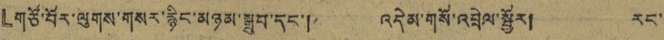「གཙོ་བོར་ལུགས་གསར་རྙིང་མཉམ་སྒྲུབ་དང་། འདེམ་གསོ་འབྲེལ་སྦྱོར། རང་
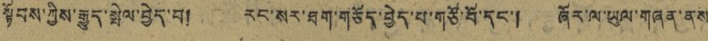སྟོབས་ཀྱིས་རྒྱུད་སྤེལ་བྱེད་བ། རང་སར་ཐག་གཅོད་བྱེད་པ་གཙོ་བོ་དང་། ཞོར་ལ་ཡུལ་གཞན་ནས
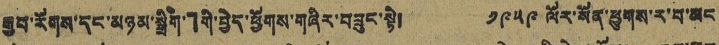རྒྱབ་རོགས་དང་མཉམ་སྒྲིག་」གི་བྱེད་ཕྱོགས་གཞིར་བཟུང་སྟེ། ༡༩༥༩ ལོར་སོན་ཕྱུགས་ར་བ་མང
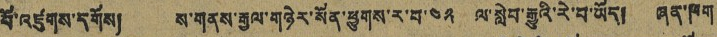པོ་འཛུགས་དགོས། ས་གནས་རྒྱལ་གཉེར་སོན་ཕྱུགས་ར་བ་༤༢ ལ་སླེབ་རྒྱུའི་རེ་བ་ཡོད། ཞན་ཁག
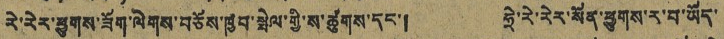རེ་རེར་ཕྱུགས་ཟོག་ལེགས་བཅོས་ཁྱབ་སྤེལ་གྱི་ས་ཚུགས་དང་། ཧྲེ་རེ་རེར་སོན་ཕྱུགས་ར་བ་ཡོད་
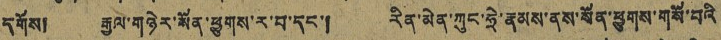དགོས། རྒྱལ་གཉེར་སོན་ཕྱུགས་ར་བ་དང་། རིན་མེན་ཀུང་ཧྲེ་རྣམས་ནས་སོན་ཕྱུགས་གསོ་བའི
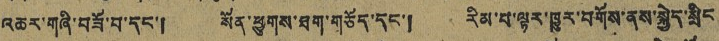འཆར་གཞི་བཟོ་བ་དང་། སོན་ཕྱུགས་ཐག་གཅོད་དང་། རིམ་པ་ལྟར་ཁྱུར་བགོས་ནས་སྐྱེད་སྲིང
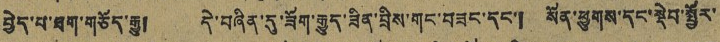བྱེད་པ་ཐག་གཅོད་རྒྱུ། དེ་བཞིན་དུ་ཟོག་རྒྱུད་ཟིན་བྲིས་གང་བཟང་དང་། སོན་ཕྱུགས་དང་སྡེབ་སྦྱོར་
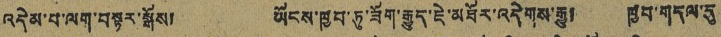འདེམ་པ་ལག་བསྟར་སྒོས། ཡོངས་ཁྱབ་ཏུ་ཟོག་རྒྱུད་ཇེ་མཐོར་འདེགས་རྒྱུ། ཁྱབ་གདལ་དུ
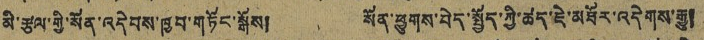མི་རྩལ་གྱི་སོན་འདེབས་ཁྱབ་གཏོང་སྒོས། སོན་ཕྱུགས་བེད་སྤྱོད་ཀྱི་ཚད་ཇེ་མཐོར་འདེགས་རྒྱུ།
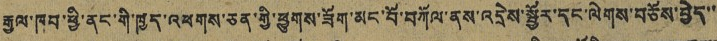རྒྱལ་ཁབ་ཕྱི་ནང་གི་ཁྱད་འཕགས་ཅན་གྱི་ཕྱུགས་ཟོག་མང་པོ་བཀོལ་ནས་འདྲེས་སྦྱོར་དང་ལེགས་བཅོས་བྱེད་་
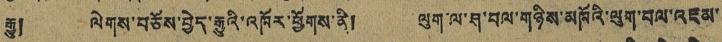རྒྱུ། ལེགས་བཅོས་བྱེད་རྒྱུའི་འཁོར་ཕྱོགས་ནི། ལུག་ལ་ཤ་བལ་གཉིས་མཁོའི་ལུག་བལ་འཇམ་
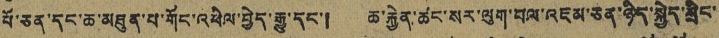པོ་ཅན་དང་ཆ་མཐུན་པ་གོང་འཕེལ་བྱེད་རྒྱུ་དང་། ཆ་རྐྱེན་ཚང་སར་ལུག་བལ་འཇམ་ཅན་ཉིད་སྐྱེད་སྲིང་
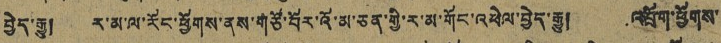བྱེད་རྒྱུ། ར་མ་ལ་རོང་ཕྱོགས་ནས་གཙོ་བོར་འོ་མ་ཅན་གྱི་ར་མ་གོང་འཕེལ་བྱེད་རྒྱུ། འབྲོག་ཕྱོགས་
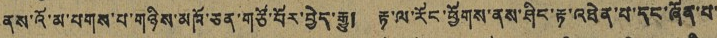ནས་འོ་མ་པགས་པ་གཉིས་མཁོ་ཅན་གཙོ་བོར་བྱེད་རྒྱུ། རྟ་ལ་རོང་ཕྱོགས་ནས་ཤིང་རྟ་འཐེན་པ་དང་ཞོན་པ་
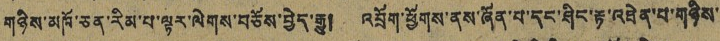གཉིས་མཁོ་ཅན་རིམ་པ་ལྟར་ལེགས་བཅོས་བྱེད་རྒྱུ། འབྲོག་ཕྱོགས་ནས་ཞོན་པ་དང་ཤིང་རྟ་འཐེན་པ་གཉིས་
